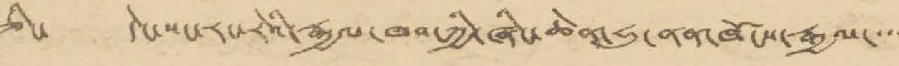ཅིང་ དེང་སང་རང་རེའི་རྒྱལ་ཁབ་ཀྱི་ཞིང་ཆེན་ཧུ་ནན་ཁོངས་རྒྱལ་་་་་
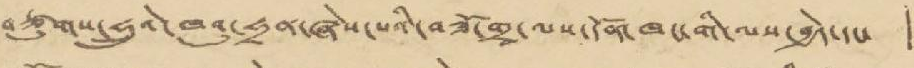བཙུགས་ཧྲུའེ་ཁའུ་ཧྲན་ཞེས་པའི་བཟོ་གྲྭ་ལས་དོན་ཁང་གི་ལས་བྱེད་དང་ །
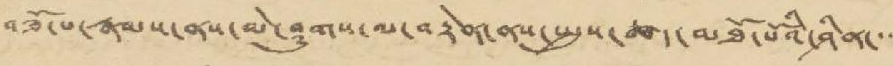བཟོ་པ་རྣམས་ནས་མེ་ཤུགས་ལ་བརྟེན་ནས་སྤུས་ཚད་མཐོ་པོའི་ཤིན་་་་
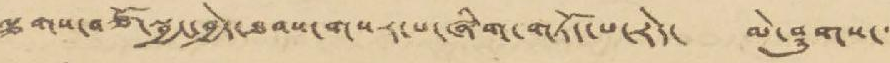ལྕགས་གཙོ་སྦྱང་བྱེད་ཐབས་གསར་པ་ཞིག་གཏོད་པ་རེད་ མེ་ཤུགས་་་
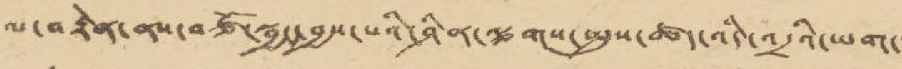ལ་བརྟེན་ནས་བཙོ་སྦྱང་བྱས་པའི་ཤིན་ལྕགས་སྤུས་ཚད་འདི་འདྲའི་ཡག་་
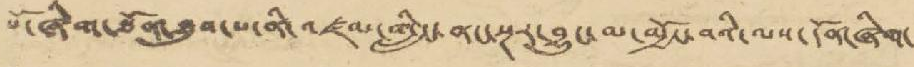པོ་ཞིག་ཐོན་ཐུབ་པ་ནི་འཛམ་གླིང་ནང་སྔར་བྱུང་མ་མྱོང་བའི་ལས་དོན་ཞིག་
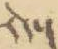རེད་།
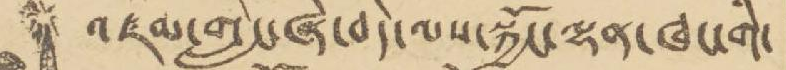འཛམ་གླིང་ཞི་བདེ་ལས་སྐྱོང་ལྷན་ཁང་གི་
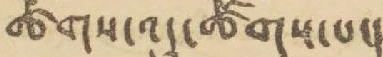ཚོགས་འདུ་ཚོགས་པ་།
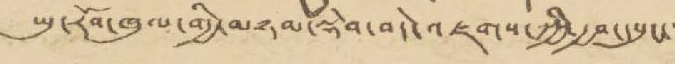ཡུ་རོབ་ཁུལ་གྱི་མཉམ་ལྡེབ་བདེ་འཇགས་ཀྱི་རྒྱབ་དཔུང་་་
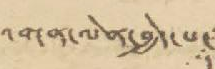འགན་ལེན་བྱེད་པ་
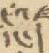དང་།
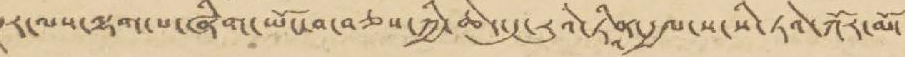སྔར་ལས་ལྷག་པ་ཞིག་ཡོང་བ་བཅས་ཀྱི་ཆེད་དུ་རུའེ་ཏཱིན་རྒྱལ་ས་སི་ཏའེ་ཀོར་མོ་
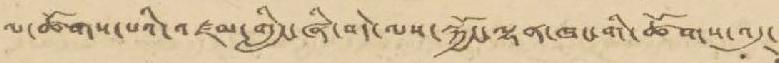ལ་ཚོགས་པའི་འཛམ་གླིང་ཞི་བདེ་ལས་སྐྱོང་ལྷན་ཁང་གི་ཚོགས་འདུ་
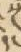དེ་
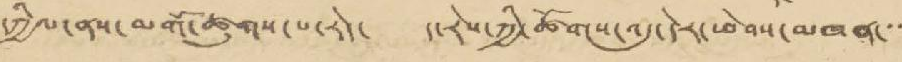དཀྱིལ་ནས་མགོ་ཚུགས་པ་རེད་ ད་རེས་ཀྱི་ཚོགས་འདུ་དེར་ཕེབས་མཁན་་་་
